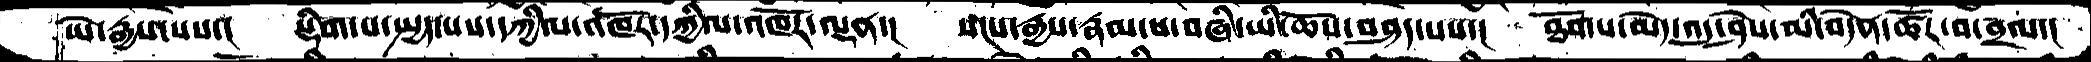ཡེ་རྒྱས་པས་།   སྡིག་པ་སྤྱད་པས་དཀྱིལ་འཁོར་དཀྱིལ་འཁོར་ལྡན་།   སངས་རྒྱས་རྣམ་པ་བཞི་ཡི་ཆོས་བཤད་པས་།   ཐོགས་མེད་འདུ་ཤེས་མི་བདེན་ཚོར་བ་བྲལ་།
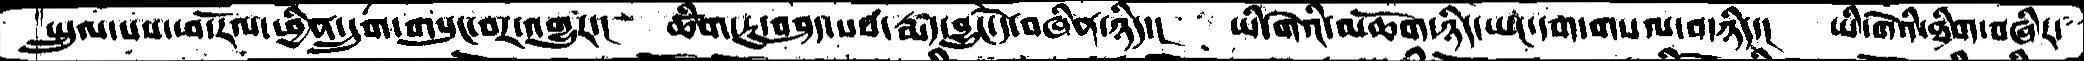སྤྲུལ་པས་ཕ་རོལ་ཕྱིན་དྲུག་གསུང་བར་འགྱུར་།    ཚིག་ཏུ་བཤད་པས་རྨད་བྱུང་དེ་བཞིན་ཉིད་།    ཡི་གེའི་མཆོག་ཉིད་ཡང་དག་གསལ་བ་ཉིད་།   ཡི་གེའི་ཐིག་བཞིར་
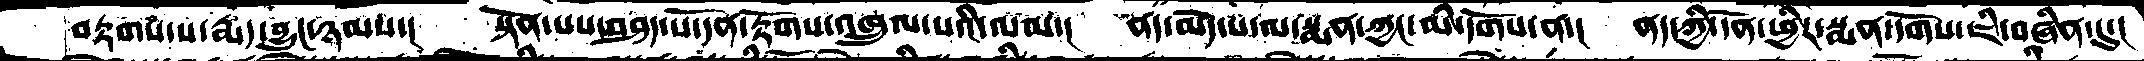བརྟགས་ས་རྨད་བྱུང་ཉམས་།    སྟོན་པས་བཤད་ས་དོན་རྟོགས་འཁྲུལ་པའི་ལམ་།   ནད་མེད་པ་ལ་སྨན་ཀྱང་མི་དགོས་ན་།    ནད་ཀྱི་དོན་ཕྱིར་སྨན་དགོས་ཇི་བཞིན་དུ་།
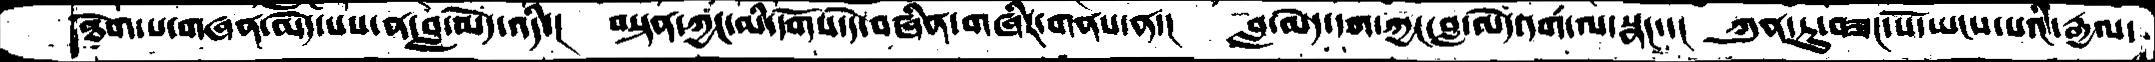ཐེག་པ་གཞན་མེད་པས་ན་བླ་མེད་འདི་།   བསྟན་ཀྱང་མི་དགོས་དེ་བཞིན་གཞིར་གནས་ན་།     བླ་མེད་དག་ཀྱང་བླ་མེད་དག་ལ་སྣང་་།   ཀུན་ཏུ་བཟང་པོ་ཡངས་པའི་རྒྱལ་
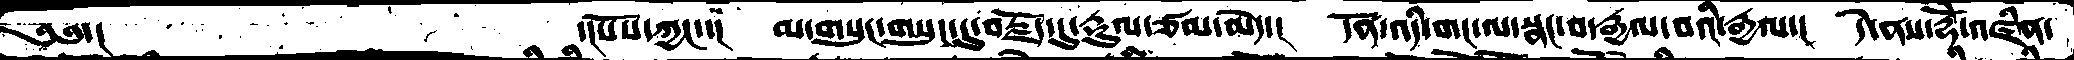༄༅་།              ་།སསོ་ཀྱང་་།    མ་གསུང་གསུང་དུ་བརྗོད་དུ་རྡུལ་ཙམ་མེད་།   དོན་འདི་གང་ལ་སྣང་བ་རྒྱལ་བའི་རྒྱལ་།   དེ་ནས་རྡོེ་འཛིན་
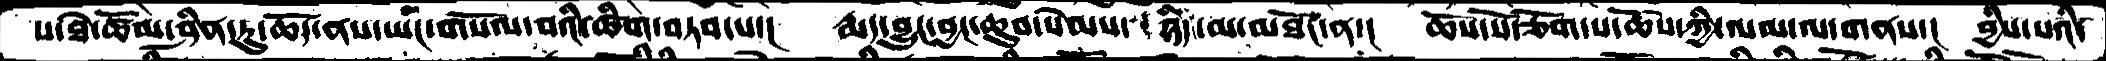ས་ཐེ་ཚོམ་ཤིན་ཏུ་ཆོད་ནས་ཡང་གསོལ་བའི་ཚིག་བཏབ་པ་།  རྨད་བྱུང་བྱང་ཆུབ་སེམས་ ཉིད་མ་མཐོང་ན་།  ཆོས་སོ་ཅོག་པ་ཆོས་ཀྱི་ལམ་ལ་གནས་།  བྱིས་པའི་
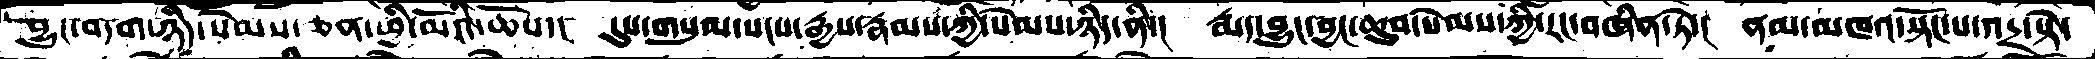བྱུང་བདག་ཉིད་སེམས་ཅན་ཕྱི་མོའི་ཆོས་།  དུས་གསུམ་སངས་རྒྱས་རྣམས་ཀྱི་སེམས་ཉིད་ནི་།  རྨད་བྱུང་བྱང་ཆུབ་སེམས་ཀྱི་རང་བཞིན་ཏེ་།  ནམ་མཁའ་སྟོང་པ་འདྲ་སྟེ་
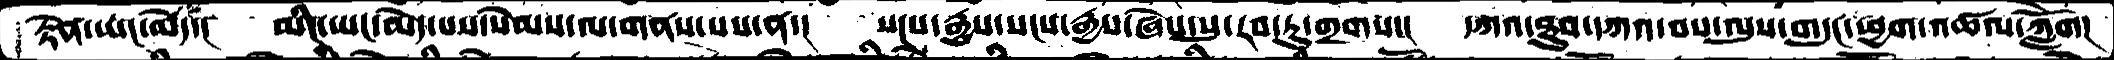རྟེན་ཡང་མེད་།  མིང་ཡང་མེད་པས་སེམས་ལ་གནས་པས་ན་།   སངས་རྒྱས་སངས་རྒྱས་ཞེས་སུ་རབ་ཏུ་གྲགས་།  དཀའ་ཐུབ་དཀའ་བས་ལུས་གདུང་ཕྱག་འཚལ་ཀློག།
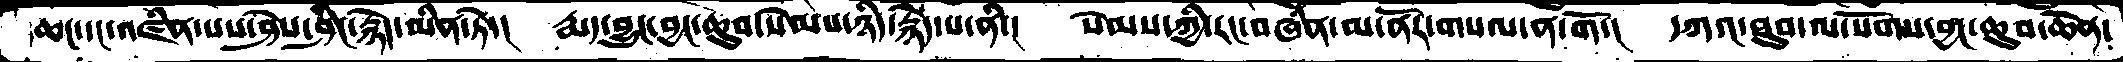ཆང་དང་འཛིན་པས་ཤེས་ཤིང་རྙེད་མིན་ཏེ་།  རྨད་བྱུང་བྱང་ཆུབ་སེམས་ཉིད་རྙེད་པ་ནི་།  སེམས་ཀྱི་རང་བཞིན་མ་ནོར་གསལ་ན་གོ་།  དཀའ་ཐུབ་ལ་སོགས་བྱང་ཆུབ་ཆེན་
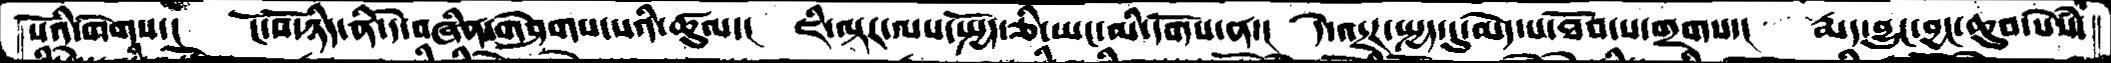སོའི་གེགས་།  ངོ་བོ་ཉིད་ནི་དེ་བཞིན་གཤེགས་པའི་ཚུལ་།  ཇི་ལྟར་ལས་སྤྱོད་ཅི་ཡང་མི་དགོས་ན་།  དེ་འདྲར་སྤྱད་དུ་མེད་པ་ཐོབ་པ་གྲགས་།  རྨད་བྱུང་བྱང་ཆུབ་སེཾས་
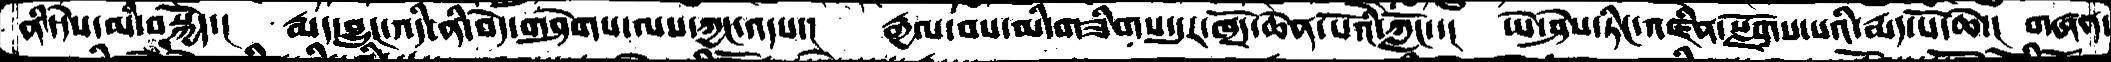ནི་དེས་མི་བསྐྱེད་།  རྨད་བྱུང་འདི་ནི་བདེ་གཤེགས་ལས་ཀྱང་འདས་།  རྒྱལ་བས་མི་གཟིགས་དུར་ཁྲོད་ཆེན་པོའི་ཀློང་་།  ཡེ་ཤེས་ཏིང་འཛིན་སྫོགས་པའི་རྨད་པོ་ཆེ་།  གཞན་
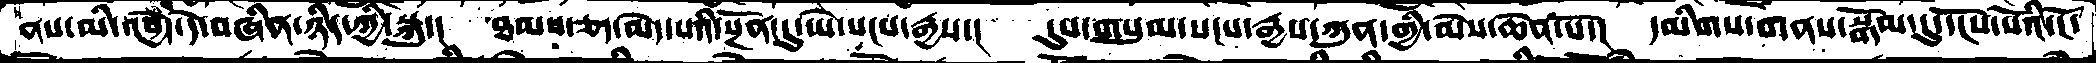ནས་མི་འབྱེད་དེ་བཞིན་ཉིད་ཀྱི་སྐུ་།  ཐམས་ཅད་མེད་པའི་སྔོན་དུ་ཡེ་སངས་རྒྱས་།  དུས་གསུམ་སངས་རྒྱས་ཀུན་གྱི་མེས་ཆེན་པོ་།  དམིགས་གནས་སྒོམ་དུ་དངོས་པོའི་ངོ་
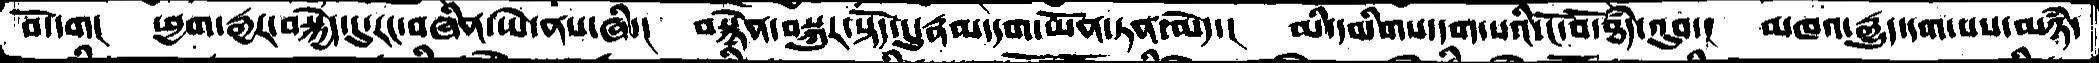བོ་དག།  ཕྱག་རྒྱར་བསྐྱེད་དུ་རང་བཞིན་ཡེ་ནས་ཞི་།  བསྙེན་བསྐུར་སྟོད་དུ་རྣམ་དག་ཡོན་ཏན་མེད་། མི་དམིགས་དག་པའི་ངོ་བོ་ཐཾད་འུབ་།  མཁའ་རྒྱུད་དག་པས་མཉཾ་
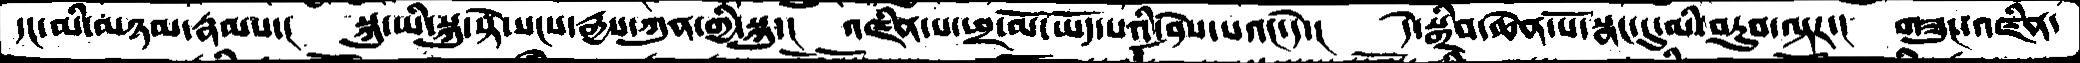དང་མི་མཉམ་རྣམས་།  སྐུ་ཡི་སྐུ་སྟེ་སངས་རྒྱས་ཀུན་གྱི་སྐུ་།  འཛིན་པ་ཕྲ་མོ་ཡོད་པའི་ཤེས་པའང་དེ་།  དེ་སྒྲིབ་ཆེན་པོ་སྣང་དུ་མི་བཏུབ་ལྟར་།  གཟུང་འཛིན་
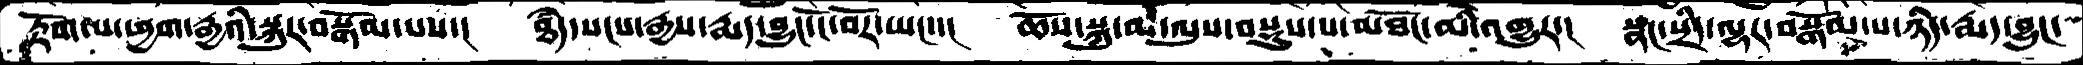རྟོག་པ་ཕྱག་རྒྱའི་སྐུར་བསྒོམ་པས་།  ཐཾད་སངས་རྒྱས་རྨད་བྱུང་ངོ་བོར་ཡང་་།  ཆོས་སྐུ་མ་ལུས་བསྡུས་པ་མཐོང་མི་འགྱུར་།  སྣང་སྲིད་ལྷར་བསྒོམ་པ་ཉིད་རྨད་བྱུང་
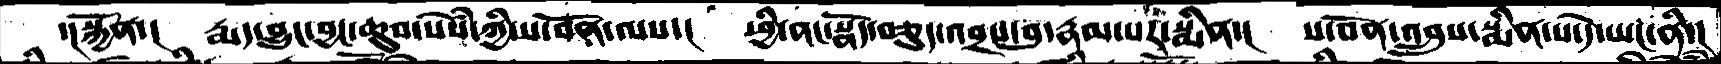་།སྐྱོན་།  རྨད་བྱུང་བྱང་ཆུབ་སེཾས་ཀྱི་ས་བོན་ལས་།  ཕྱི་ནང་སྣོད་བཅུད་འབྲས་བུ་རྣམ་པར་སྨིན་།  ས་བོན་འབྲུས་སྨིན་པ་དེ་ཡང་ནི་།
